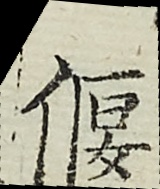偃
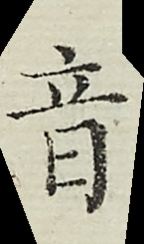音
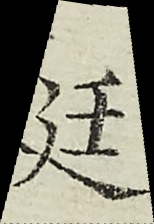廷
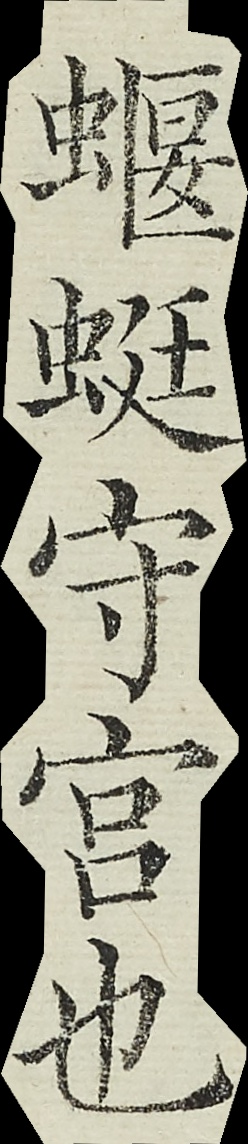蝘蜓守宮也
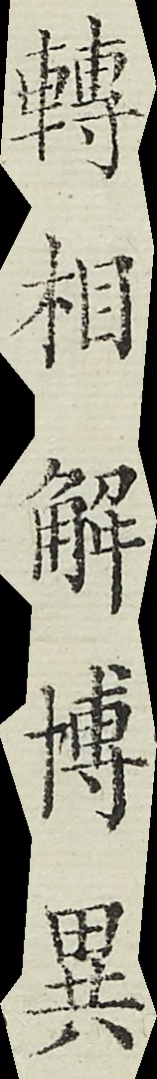轉相解博異
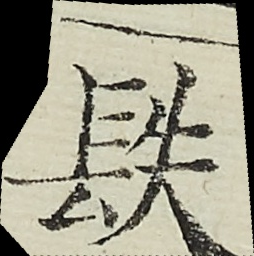镻
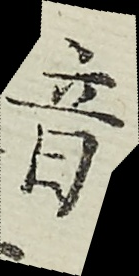音
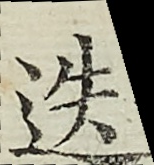迭
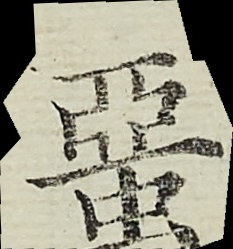蝁
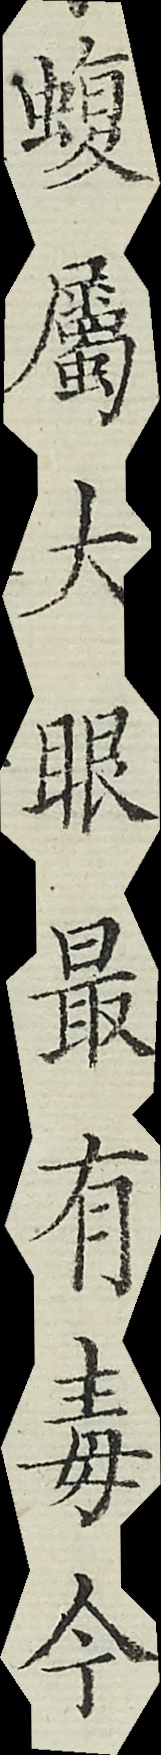蝮屬大眼最有毒今
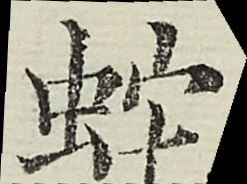蛇
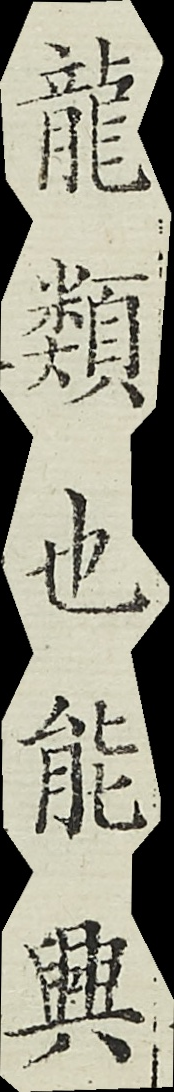龍類也能興
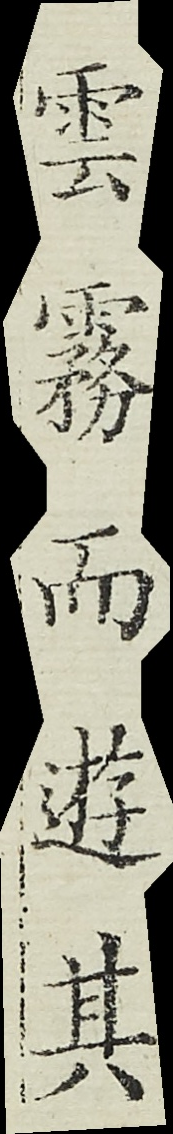雲霧而遊其
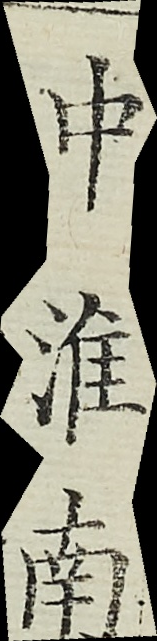中淮南
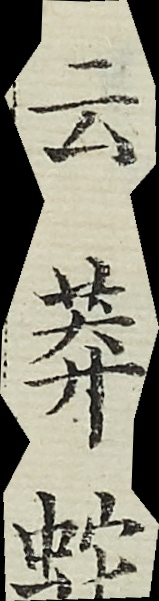云莽蛇
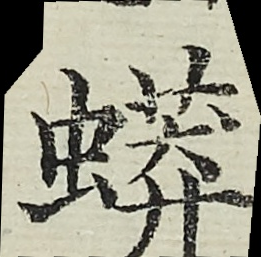蟒
